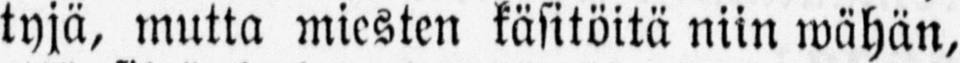tyjä, mutta miesten käsitöitä niin wähän,
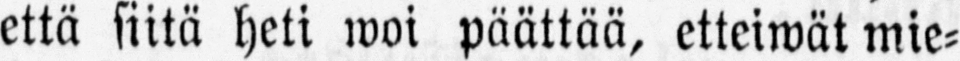että siitä heti woi päättää, etteiwät mie-
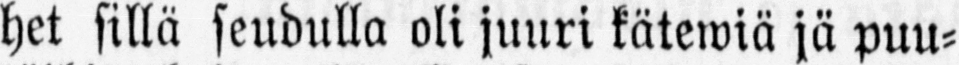het sillä seudulla oli juuri kätewiä jä puu-
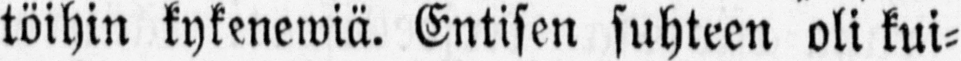töihin kykenewiä. Entisen suhteen oli kui-
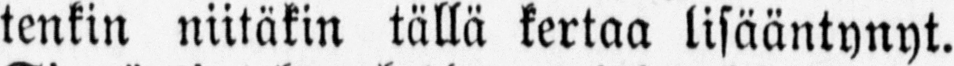tenkin niitäkin tällä kertaa lisääntynyt.
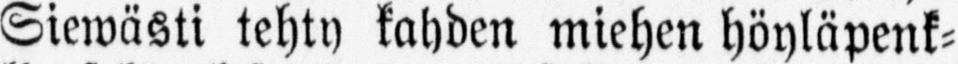Siewästi tehty kahden miehen höyläpenk-
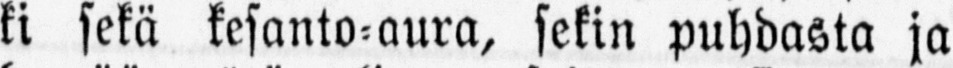ki sekä kesanto-aura, sekin puhdasta ja
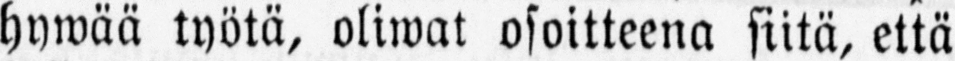hywää työtä, oliwat osoitteena siitä, että
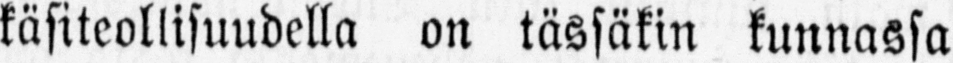käsiteollisuudella on tässäkin kunnassa
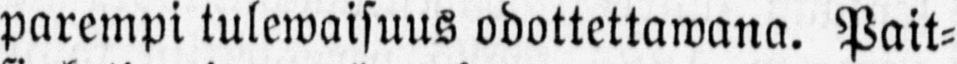parempi tulewaisuus odottettawana. Pait-
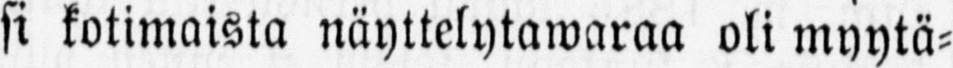si kotimaista näyttelytawaraa oli myytä-
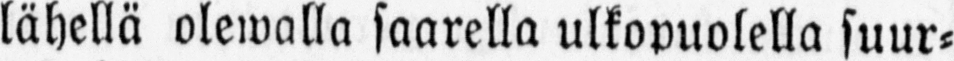lähellä olewalla saarella ulkopuolella suur-
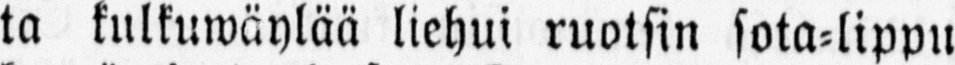ta kulkuwäylää liehui ruotsin sota-lippu
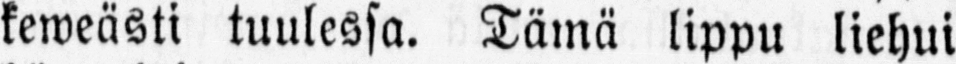keweästi tuulessa. Tämä lippu liehui
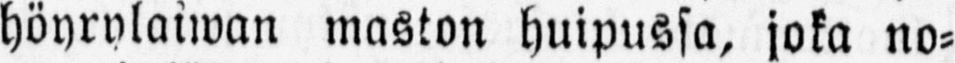höyrylaiwan maston huipussa, joka no-
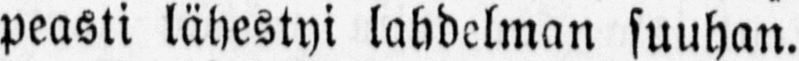peasti lähestyi lahdelman suuhan.
